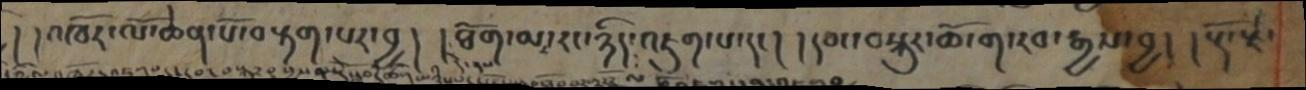། །འཁོར་ལོ་ཆེན་པོ་བརྟག་པར་བྱ། །ཐོག་མར་རང་ཉིད་འཇུག་པ་དང། །དབང་བསྐུར་ཆོ་ག་རབ་རྒྱས་བྱ། །རྡོ་རྗེ་
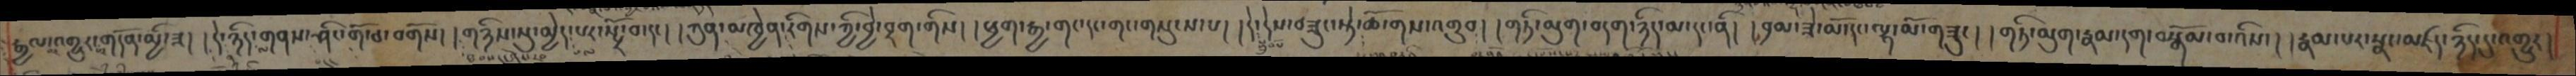རྒྱལ་འགྱུར་གདོན་མྱི་ཟ། །དེ་ཉིད་གནས་ཤིང་གོ་ཅ་བགོས། །གཉིས་སུ་མྱེད་པར་སྤྲོ་བ་དང། །ཀུན་མཁྱེན་རིགས་ཀྱི་བྱེ་བྲག་གིས། །ཕྱག་རྒྱ་གང་དང་གང་གསུངས་པ། །དེ་དེས་བཟུང་སྟེ་ཆོ་གས་འགྲུབ། །གཏི་མུག་བདག་ཉིད་མ་དང་ནི། །བྲམ་ཟེ་མོ་དང་ལྷ་མོ་གཟུང། །གཏི་མུག་རྣམ་དག་བསྒོམ་བ་འིས་། །རྣམ་པར་སྣང་མཛད་ཉིད་དུ་འགྱུར།
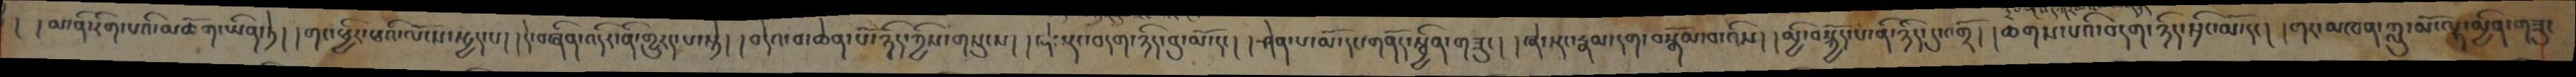། །མ་ནི་རིག་པའི་མཆོག་ཡིན་ཏེ། །གང་ཕྱིར་ཕའི་ལོངས་སྤྱད་པ། །དེ་བཞིན་འདིར་ནི་གྱུརད་པ་སྟེ། །བདེའ་བ་ཆེན་པོ་ཉིད་ཀྱིས་གསུངས། །ཞེ་སྡང་བདག་ཉིད་བུ་མོ་དང། །ཤེན་པ་མོ་དང་གནོད་སྦྱིན་གཟུང། །ཞེ་སྡང་རྣམ་དག་བསྒོམ་བ་འིས། །མྱི་བསྐྱོད་པ་ནི་ཉིད་དུ་འགྲོ། །ཆགས་པའི་བདག་ཉིད་སྲིང་མོ་དང། །གར་མཁན་ཀླུ་མོ་ལྷ་མྱིན་གཟུང
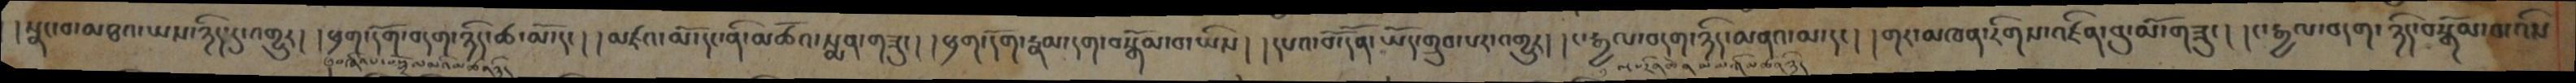།སྣང་བ་མཐའ་ཡས་ཉིད་དུ་འགྱུར། །ཕྲག་དོག་བདག་ཉིད་ཚ་མོ་དང། །མཛའ་མོ་དང་ནི་མཚོའ་སྨན་གཟུང། །ཕྲག་དོག་རྣམ་དག་བསྒོམ་བ་ཡིས། །དཔའ་བོ་དོན་ཡོད་གྲུབ་པར་འགྱུར། །ང་རྒྱལ་བདག་ཉིད་མནའ་མ་དང། །གར་མཁན་རིགས་འཛིན་བུ་མོ་གཟུང། །ང་རྒྱལ་བདག་ཉིད་བསྒོམ་བ་འིས
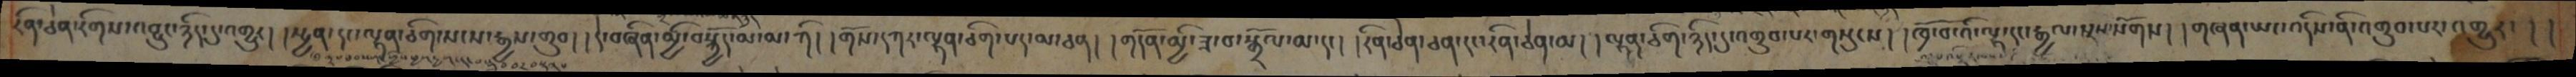རིན་ཅེན་རིགས་འབྱུང་ཉིད་དུ་འགྱུར། །སྤྱན་དང་ལྷན་ཅིག་སངས་རྒྱས་གྲུབ། །དེ་བཞིན་མྱི་བསྐྱོད་མ་མ་ཀི། །གོས་དཀར་ལྷན་ཅིག་པད་མ་ཅན། །གདོན་མྱི་ཟ་བ་སྒྲོལ་མ་དང། །རིན་ཅེན་ཅན་དང་རིན་ཅེན་མ། །ལྷན་ཅིག་ཉིད་དུ་འགྲུབ་པར་གསུངས། །ཁྲོ་བོ་འི་ལྷ་དང་རྒྱལ་སྲས་སོགས། །གཞན་ཡང་འདིས་ནི་འགྲུབ་པར་འགྱུར་། །
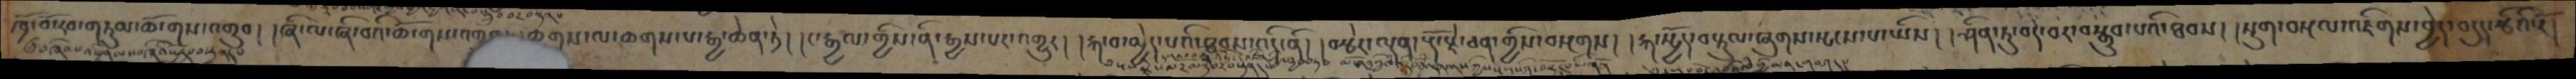ཁྲོ་བོ་རབ་གཏུམ་ཆོ་གས་འགྲུབ། །ཞི་ལ་ཞི་བའི་ཆོ་གས་འགྲུབ་ཆགས་ལ་ཆགས་པ་རྒྱ་ཆེན་ཏེ། །ང་རྒྱལ་གྱིས་ནི་རྒྱས་པར་འགྱུར། །རྐ་བ་མྱེད་པའི་ཐབས་འདི་ནི། །བརྩེར་ལྡན་རྡོ་རྗེ་ཅན་གྱིས་བསྔགས། །རྐ་སྤྱོད་བརྟུལ་ཞུགས་སྤངས་པ་ཡིས། །ཤིན་ཏུ་བདེ་བར་བསྒྲུབ་པའི་ཐབས། །སྡུག་བསྔལ་འཇིགས་བྱེད་བདུད་རྩིའི་རོ།
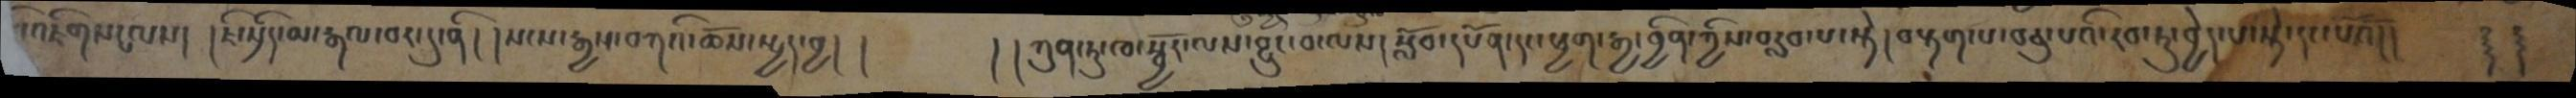དེ་འཇིགས་པ་ལས། །ཇི་སྲིད་མ་རྒལ་བར་དུ་ནི། །སངས་རྒྱས་བཀའི་ཆོས་སྤྱད་བྱ།།    །།ཀུན་ཏུ་ཁ་སྦྱོར་ལས་བྱུང་བ་ལས། སློབ་དཔོན་དང་ཕྱག་རྒྱ་བྱིན་གྱིས་བརླབ་པ་སྟེ། བརྟག་པ་བཅུ་པའི་རབ་ཏུ་བྱེད་པ་སྟེ་དང་པོའོ།།   ༈༈
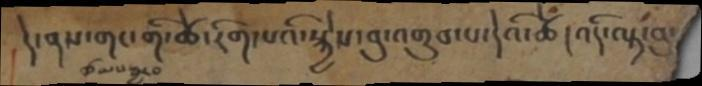དེ་ནས་གང་གི་ཚེ་རིག་པའི་སྐྱེས་བུ་འགྲུབ་པ་དེའི་ཚེ། འདི་ལྟ་བུ་
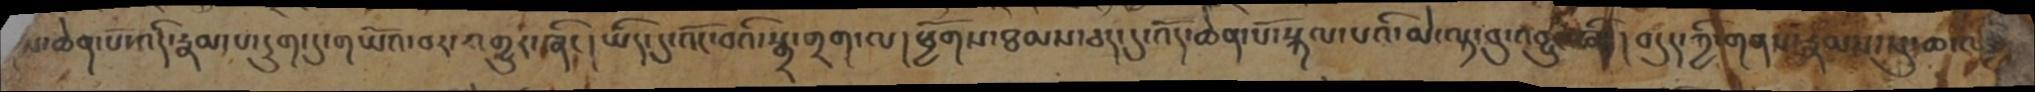ས་ཆེན་པོ་འདི་རྣམ་པ་དྲུག་དུ་གཡོའ་བར་འགྱུར་ཞིང། ཡིད་དུ་འོང་བའི་སྒྲ་གྲག་ལ། ཕྱོགས་ཐམས་ཅད་དུ་འོད་ཆེན་པོ་སྐལ་པའི་མེ་ལྟ་བུ་འབྱུང་ཞིང། བདུད་ཀྱི་གནས་རྣམས་སུ་ཆ་ལ
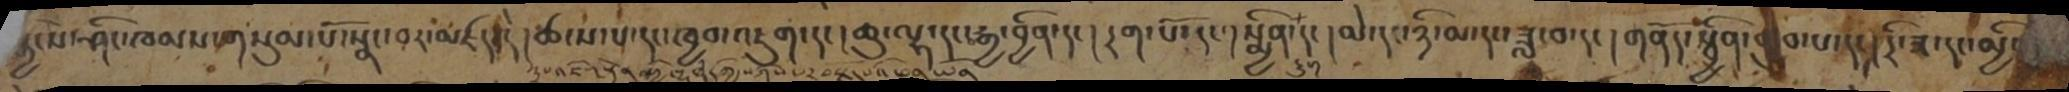སྐྱངས་ཤིང་ཁམས་གསུམ་པོ་སྣང་བར་མཛད་དེ། ཚངས་པ་དང་ཁྱབ་འཇུག་དང། ཆུ་ལྷ་དང་བརྒྱ་བྱིན་དང། དྲག་པོ་དང་། སྨྱིན་དྲུག་དང། མེ་དང་ཉི་མ་དང་ཟླ་བ་དང། གནོད་སྦྱིན་གྲུབ་པ་དང། དྲི་ཟ་དང་མྱིག
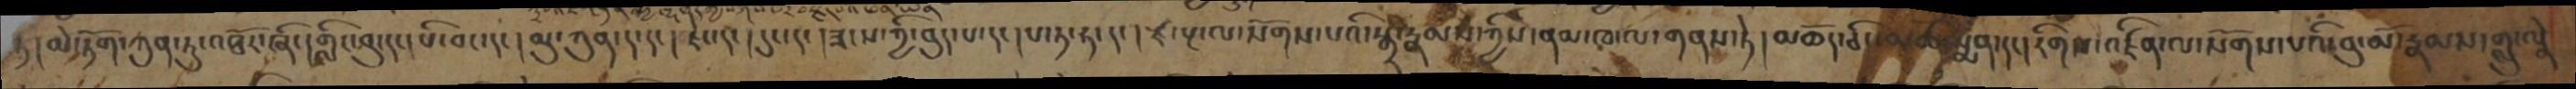ཏ། མེ་ཏོག་ཀུན་ཏུ་འཐོར་ཞིང་། གླིང་བུ་དང། པི་བང་དང། མུ་ཀུན་ད་དང། ཇེ་དང། དུང་དང། ཟངས་ཀྱི་བུད་པ་དང། པ་ཏ་ཧ་དང། རྫ་ལྔ་ལ་སོགས་པའི་སྒྲ་རྣམས་ཀྱིས་ནམ་ཁ་ལ་གནས་ཏེ། མཆོད་ཅིང་མཆོད་སྨན་དང། རིགས་འཛིན་ལ་སོགས་པའི་བུ་མོ་རྣམས་གླུ་ལེན
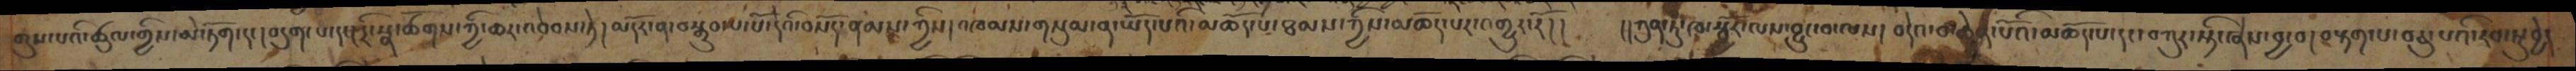གུས་པའི་ཚུལ་གྱིས་མེ་ཏོག་དང། བདུག་པ་དང། དྲི་སྣ་ཚོགས་ཀྱི་ཆར་འབེབས་ཏེ། མདོར་ན་བསྒྲུབ་པ་པོ་དེའི་བསོད་ནམས་ཀྱིས། འཁམས་གསུམ་ན་ཡོད་པའི་མཆོད་པ་ཐམས་ཀྱི་མཆོད་པར་འགྱུར་རོ།།     །།ཀུན་ཏུ་ཁ་སྦྱོར་ལས་བྱུང་བ་ལས།  བདེའ་བ་ཆེན་པོའི་མཆོད་པ་དང་བཀུར་སྟི་ཞེས་བྱ་བ། བརྟག་པ་བཅུ་པའི་རབ་ཏུ་བྱེད
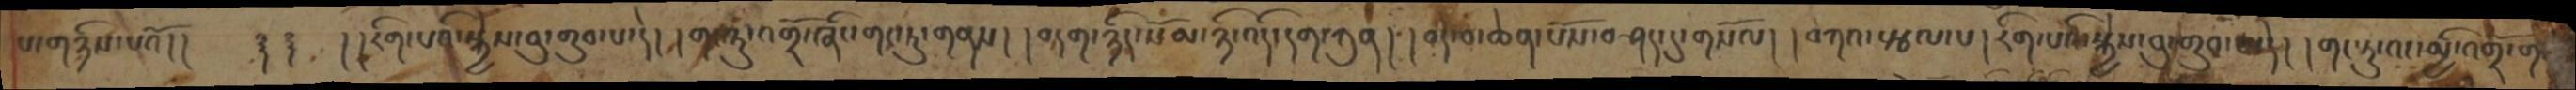པ་གཉིས་པའོ།།    ༈ ༈   །།རིག་པའི་སྐྱེས་བུ་གྲུབ་པ་དེ། །གང་ཏུ་འགྲོ་ཞིང་གང་ཏུ་གནས། །བདག་ཉིད་སོམ་ཉི་འདི་དག་ཀུན། །བདེ་བ་ཆེན་པོས་བཤད་དུ་གསོལ། །བཀའ་རྩལ་པ། རིག་པའི་སྐྱེས་བུ་གྲུབ་པ་དེ། །གང་ཏུ་འང་མྱི་འགྲོ་ག
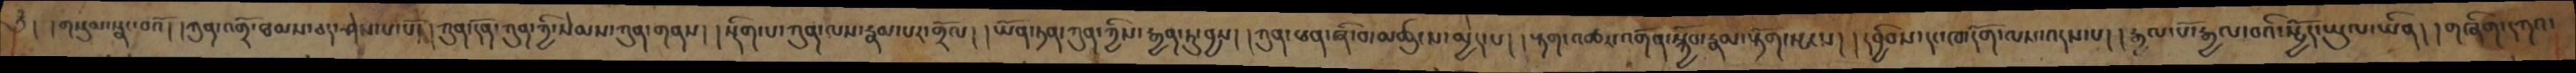༄ྃ། །གསུམ་སྣང་བའོ། །ཀུན་འགྲོ་ཐམས་ཅད་ཤེས་པ་པོ། །ཀུན་དོན་ཀུན་གྱི་སེམས་ཀུན་གནས། །སྡིག་པ་ཀུན་ལས་རྣམ་པར་གྲོལ། །ཡོན་ཏན་ཀུན་ཀྱིས་རྒྱན་ཏུ་བྱས། །ཀུན་ཕན་ཞི་བ་མཚུངས་མྱེད་པ། །རྟག་འཆར་འགོན་སྐྱོབ་རྣམ་རྟོག་སྤངས། །དབྱིབས་དང་ཁ་དོག་ལས་འདས་པ། །རྒྱལ་པོ་རྒྱལ་བའི་སྤྱོད་ཡུལ་ཡིན། །གཞིག་དཀའ་
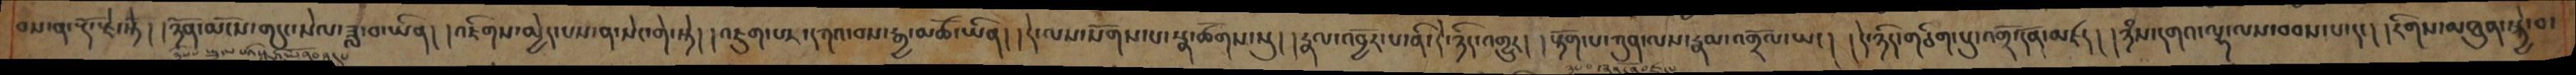བས་ན་རྡོ་རྗེ་སྟེ། །ཉོན་མོངས་གདུང་སེལ་ཟླ་བ་ཡིན། །འཇིགས་མྱེད་པས་ན་སེང་གེ་སྟེ། །འཇུག་པར་དཀའ་བས་རྒྱ་མཚོ་ཡིན། །དེ་ལས་སོགས་པ་སྣ་ཚོགས་སུ། །རྣལ་འབྱོར་པ་ནི་དེ་ཉིད་འགྱུར། །རྟོག་པ་ཀུན་ལས་རྣམ་འགྲོལ་ཡང། །དེ་ཉིད་གཅིག་པུ་འགྲོ་དོན་མཛད། །ཉཾས་དགའ་ལྷ་ལས་བབས་པ་དང། །རིགས་མཐུན་སྐྱེ་བ་
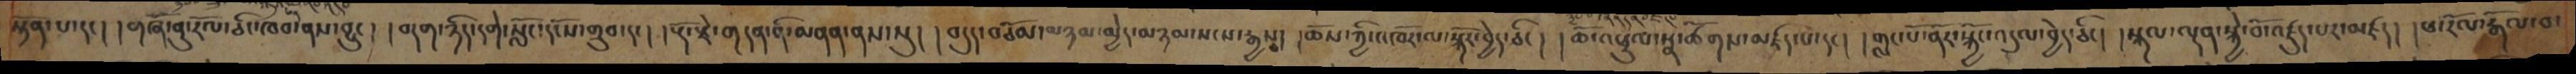སྟོན་པ་དང། །གཞོན་ནུ་རོལ་ཅིང་ཁབ་ནས་བྱུང། །བདག་ཉིད་དགེ་སློང་དངོས་གྲུབ་དང། །རྡོ་རྗེ་གདན་ནི་མནན་ནས་སུ། །བདུད་བཅོམ་མཉམ་མྱེད་མཉམ་སངས་རྒྱས། །ཆོས་ཀྱི་འཁོར་ལོ་སྐོར་བྱེད་ཅིང། །ཆོས་འཕྲུལ་སྣ་ཚོགས་མཛད་པ་དང། །གླང་པོ་ནོར་སྐྱོང་འདུལ་བྱེད་ཅིང། །སྐལ་ལྡན་སྐྱེ་བོ་འཛུད་པར་མཛད། །ཕ་རོལ་རྒོལ་བ་
